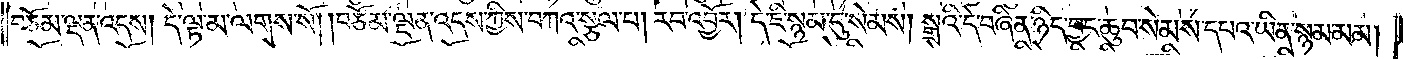བཅོམ་ལྡན་འདས། དེ་ལྟ་མ་ལགས་སོ། །བཅོམ་ལྡན་འདས་ཀྱིས་བཀའ་སྩལ་པ། རབ་འབྱོར། དེ་ཇི་སྙམ་དུ་སེམས། སྒྲའི་དེ་བཞིན་ཉིད་བྱང་ཆུབ་སེམས་དཔའ་ཡིན་སྙམ་མམ།
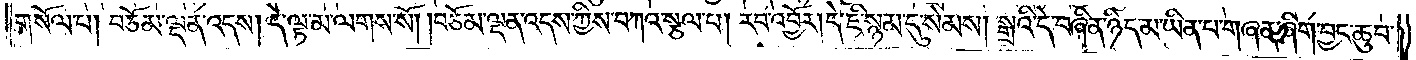གསོལ་པ། བཅོམ་ལྡན་འདས། དེ་ལྟ་མ་ལགས་སོ། །བཅོམ་ལྡན་འདས་ཀྱིས་བཀའ་སྩལ་པ། རབ་འབྱོར། དེ་ཇི་སྙམ་དུ་སེམས། སྒྲའི་དེ་བཞིན་ཉིད་མ་ཡིན་པ་གཞན་ཞིག་བྱང་ཆུབ་
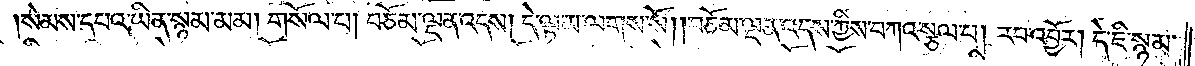སེམས་དཔའ་ཡིན་སྙམ་མམ། གསོལ་པ། བཅོམ་ལྡན་འདས། དེ་ལྟ་མ་ལགས་སོ། །བཅོམ་ལྡན་འདས་ཀྱིས་བཀའ་སྩལ་པ། རབ་འབྱོར། དེ་ཇི་སྙམ་
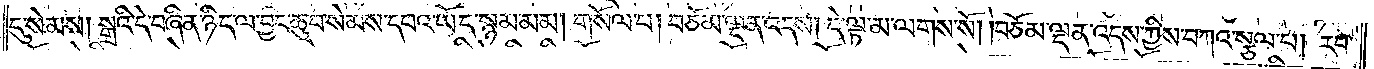དུ་སེམས། སྒྲའི་དེ་བཞིན་ཉིད་ལ་བྱང་ཆུབ་སེམས་དཔའ་ཡོད་སྙམ་མམ། གསོལ་པ། བཅོམ་ལྡན་འདས། དེ་ལྟ་མ་ལགས་སོ། །བཅོམ་ལྡན་འདས་ཀྱིས་བཀའ་སྩལ་པ། རབ་
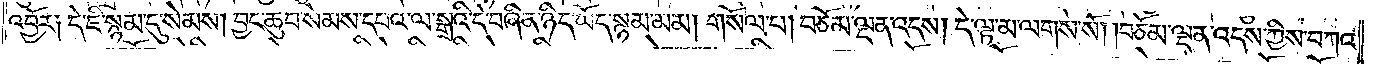འབྱོར༑ དེ་ཇི་སྙམ་དུ་སེམས། བྱང་ཆུབ་སེམས་དཔའ་ལ་སྒྲའི་དེ་བཞིན་ཉིད་ཡོད་སྙམ་མམ། གསོལ་པ། བཅོམ་ལྡན་འདས། དེ་ལྟ་མ་ལགས་སོ། །བཅོམ་ལྡན་འདས་ཀྱིས་བཀའ་
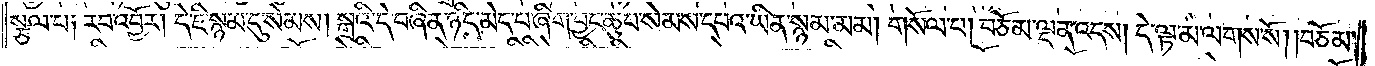སྩལ་པ༑ རབ་འབྱོར། དེ་ཇི་སྙམ་དུ་སེམས། སྒྲའི་དེ་བཞིན་ཉིད་མེད་པ་ཞིག་བྱང་ཆུབ་སེམས་དཔའ་ཡིན་སྙམ་མམ། གསོལ་བ། བཅོམ་ལྡན་འདས། དེ་ལྟ་མ་ལགས་སོ། །བཅོམ་
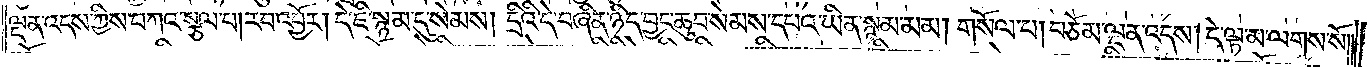ལྡན་འདས་ཀྱིས་བཀའ་སྩལ་པ། རབ་འབྱོར། དེ་ཇི་སྙམ་དུ་སེམས། དྲིའི་དེ་བཞིན་ཉིད་བྱང་ཆུབ་སེམས་དཔའ་ཡིན་སྙམ་མམ། གསོལ་པ། བཅོམ་ལྡན་འདས། དེ་ལྟ་མ་ལགས་སོ༎
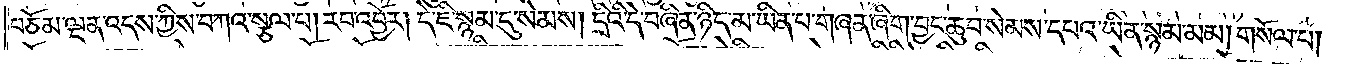བཅོམ་ལྡན་འདས་ཀྱིས་བཀའ་སྩལ་པ། རབ་འབྱོར། དེ་ཇི་སྙམ་དུ་སེམས། དྲིའི་དེ་བཞིན་ཉིད་མ་ཡིན་པ་གཞན་ཞིག་བྱང་ཆུབ་སེམས་དཔའ་ཡིན་སྙམ་མམ། གསོལ་པ།
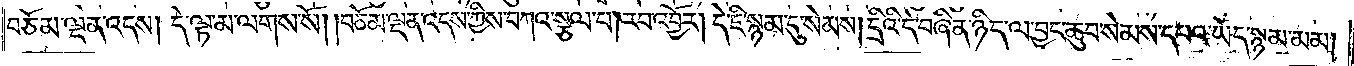བཅོམ་ལྡན་འདས། དེ་ལྟ་མ་ལགས་སོ༑ ༑བཅོམ་ལྡན་འདས་ཀྱིས་བཀའ་སྩལ་པ། རབ་འབྱོར། དེ་ཇི་སྙམ་དུ་སེམས། དྲིའི་དེ་བཞིན་ཉིད་ལ་བྱང་ཆུབ་སེམས་དཔའ་ཡོད་སྙམ་མམ།
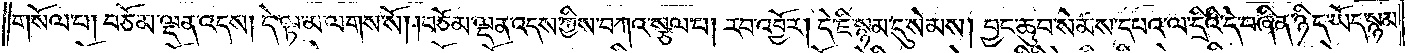གསོལ་པ། བཅོམ་ལྡན་འདས། དེ་ལྟ་མ་ལགས་སོ། །བཅོམ་ལྡན་འདས་ཀྱིས་བཀའ་སྩལ་པ། རབ་འབྱོར། དེ་ཇི་སྙམ་དུ་སེམས། བྱང་ཆུབ་སེམས་དཔའ་ལ་དྲིའི་དེ་བཞིན་ཉིད་ཡོད་སྙམ་
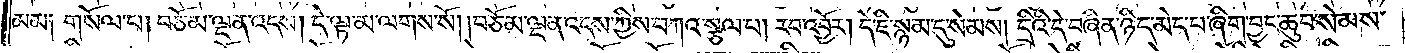མམ། གསོལ་པ། བཅོམ་ལྡན་འདས། དེ་ལྟ་མ་ལགས་སོ། །བཅོམ་ལྡན་འདས་ཀྱིས་བཀའ་སྩལ་པ། རབ་འབྱོར། དེ་ཇི་སྙམ་དུ་སེམས། དྲིའི་དེ་བཞིན་ཉིད་མེད་པ་ཞིག་བྱང་ཆུབ་སེམས་
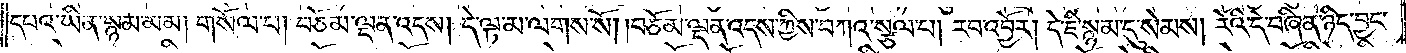དཔའ་ཡིན་སྙམ་མམ། གསོལ་པ། བཅོམ་ལྡན་འདས། དེ་ལྟ་མ་ལགས་སོ། །བཅོམ་ལྡན་འདས་ཀྱིས་བཀའ་སྩལ་པ། རབ་འབྱོར། དེ་ཇི་སྙམ་དུ་སེམས། རོའི་དེ་བཞིན་ཉིད་བྱང་
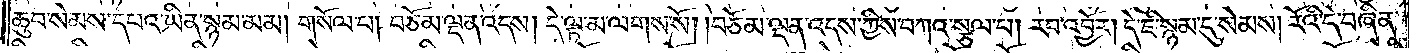ཆུབ་སེམས་དཔའ་ཡིན་སྙམ་མམ། གསོལ་པ། བཅོམ་ལྡན་འདས། དེ་ལྟ་མ་ལགས་སོ། །བཅོམ་ལྡན་འདས་ཀྱིས་བཀའ་སྩལ་པ། རབ་འབྱོར། དེ་ཇི་སྙམ་དུ་སེམས། རོའི་དེ་བཞིན་
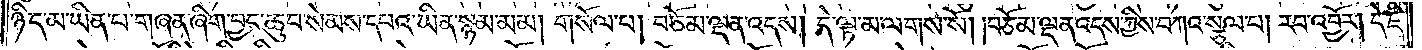ཉིད་མ་ཡིན་པ་གཞན་ཞིག་བྱང་ཆུབ་སེམས་དཔའ་ཡིན་སྙམ་མམ། གསོལ་པ། བཅོམ་ལྡན་འདས། དེ་ལྟ་མ་ལགས་སོ། །བཅོམ་ལྡན་འདས་ཀྱིས་བཀའ་སྩལ་པ། རབ་འབྱོར། དེ་ཇི་
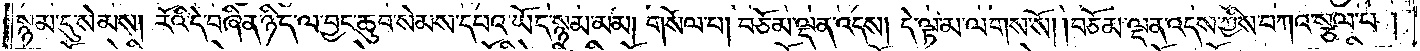སྙམ་དུ་སེམས། རོའི་དེ་བཞིན་ཉིད་ལ་བྱང་ཆུབ་སེམས་དཔའ་ཡོད་སྙམ་མམ། གསོལ་པ། བཅོམ་ལྡན་འདས། དེ་ལྟ་མ་ལགས་སོ། །བཅོམ་ལྡན་འདས་ཀྱིས་བཀའ་སྩལ་པ་།
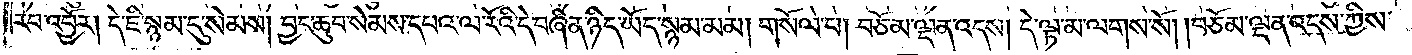རབ་འབྱོར། དེ་ཇི་སྙམ་དུ་སེམས། བྱང་ཆུབ་སེམས་དཔའ་ལ་རོའི་དེ་བཞིན་ཉིད་ཡོད་སྙམ་མམ། གསོལ་པ། བཅོམ་ལྡན་འདས། དེ་ལྟ་མ་ལགས་སོ། །བཅོམ་ལྡན་འདས་ཀྱིས་
